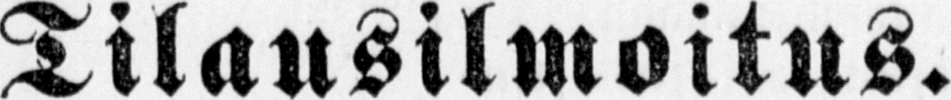Tilausilmoitus.
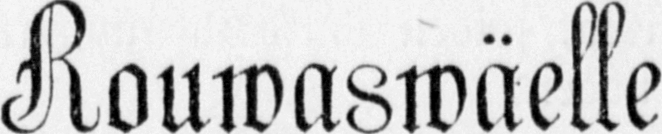Rouwaswäelle
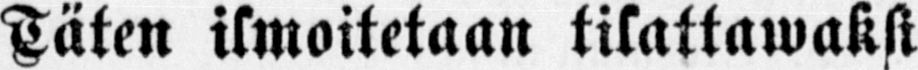Täten ilmoitetaan tilattawaksi
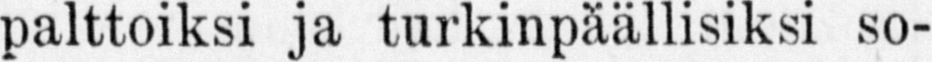palttoiksi ja turkinpäällisiksi so-
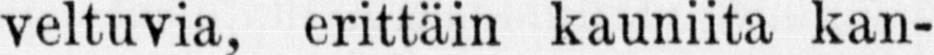veltuvia, erittäin kauniita kan-
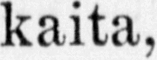kaita,
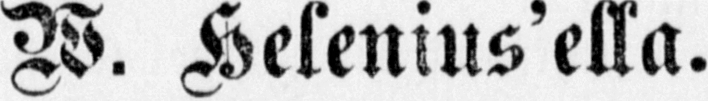W. Helenius'ella.
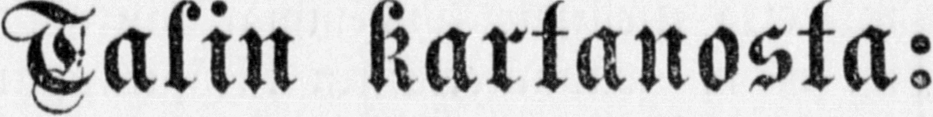Talin kartanosta:
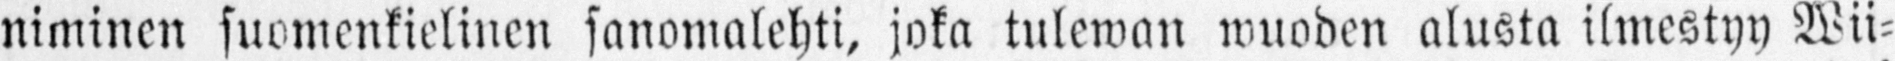niminen suomenkielinen sanomalehti, joka tulewan wuoden alusta ilmestyy Wii-
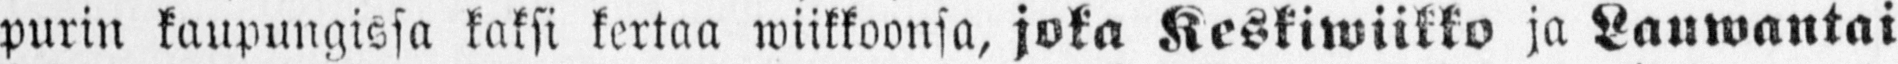purin kaupungissa kaksi kertaa wiikkoonsa, joka Keskiwiikko ja Lauwantai
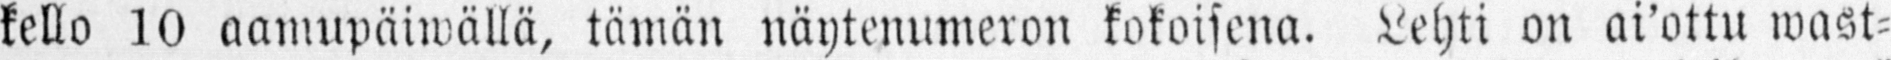kello 10 aamupäiwällä, tämän näytenumeron kokoisena. Lehti on ai'ottu wast-
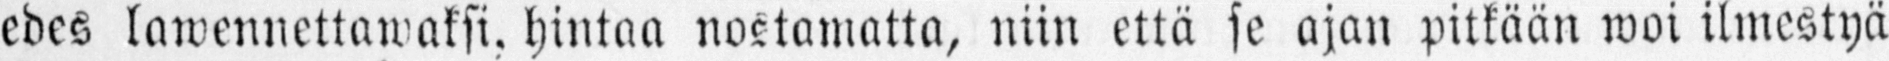edes lawennettawaksi, hintaa nostamatta, niin että se ajan pitkään woi ilmestyä
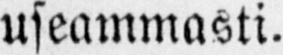useammasti.
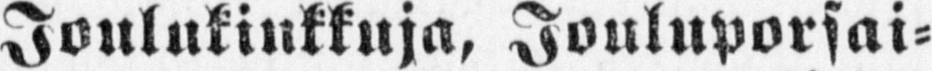Joulukinkkuja, Jouluporsai-
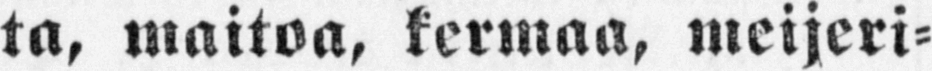ta, maitoa, kermaa, meijeri-
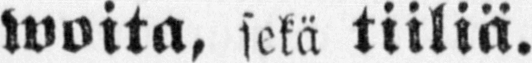woita, sekä tiiliä.
